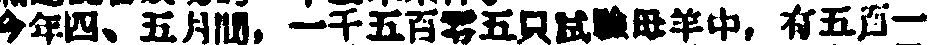今年四、五月間，一千五百零五只試驗母羊中，有五百一
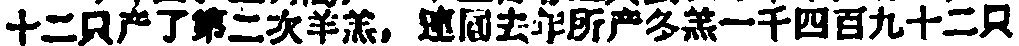十二只产了第二次羊羔，連同去年所产冬羔一千四百九十二只
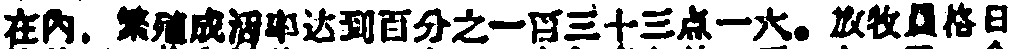在內，繁殖成活率达到百分之一百三十三点一六。放牧員格日
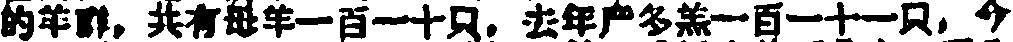的羊群，共有母羊一百一十只，去年产冬羔一百一十一日，今
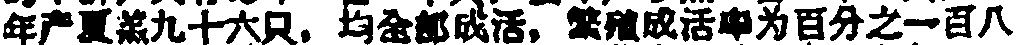年产夏羔九十六只，均全部成活，繁殖成活率为百分之一百八
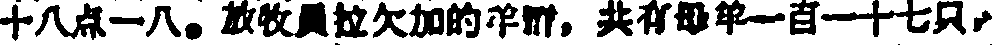十八点一八。放牧員拉欠加的羊群，共有母羊一百一十七只，
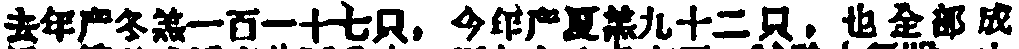去年产冬羔一百一十七只，今年产夏羔九十二只，也全部成
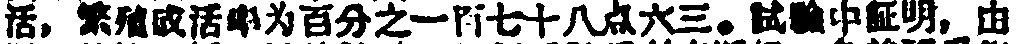活，繁殖成活率为百分之一百七十八点六三。試驗中証明，由
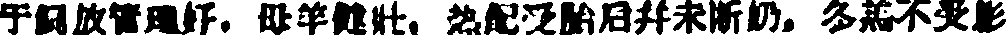于飼放管理好，母羊健壮，热配受胎后并未断奶，冬羔不受影
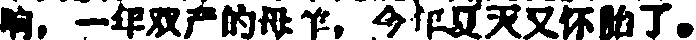响，一年双产的母羊，今年夏天又怀胎了。
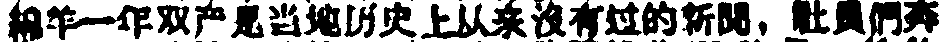綿羊一年双产是当地历史上从来沒有国的新聞，社員們奔
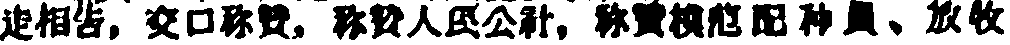走相告，交口称贊，称贊人民公社，称贊模范配种員、放牧
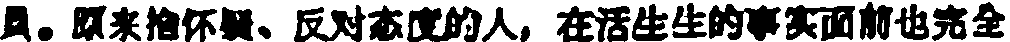員。原来持怀疑、反对态度的人，在活生生的事实面前也完全
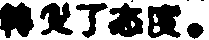轉变了态度。
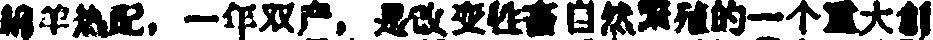綿羊热配，一年双产，是改变牲畜白然繁殖的一个重大創
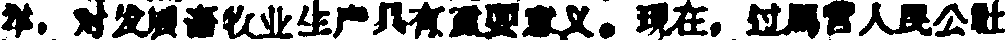举，对发展畜牧业生产具有重要意义。現在，过馬营人民公社
